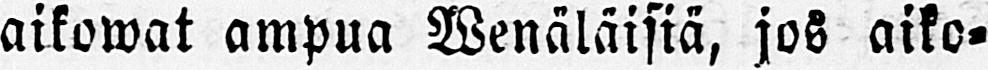aikowat ampua Wenäläisiä, jos aiko-
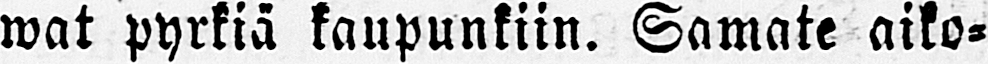wat pyrkiä kaupunkiin. Samate aiko-
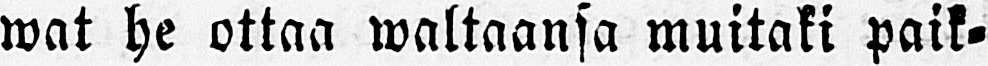wat he ottaa waltaansa muitaki paik-
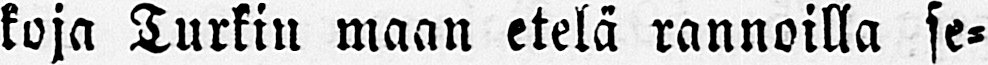koja Turkin maan etelä rannoilla se-
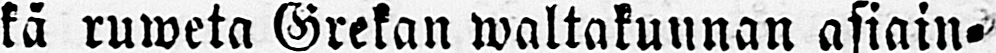kä ruweta Grekan waltakunnan asiain-
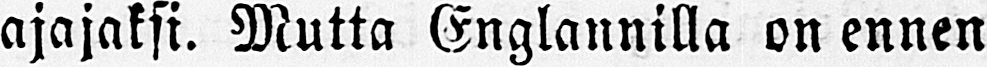ajajaksi. Mutta Englannilla on ennen
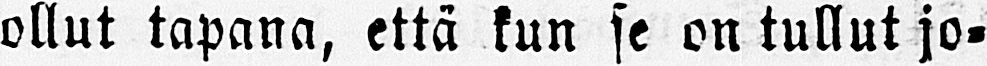ollut tapana, että kun se on tullut jo-
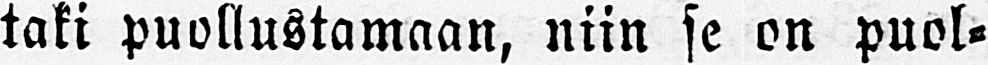taki puollustamaan, niin se on puol-
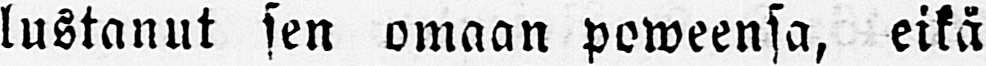lustanut sen omaan poweensa, eikä
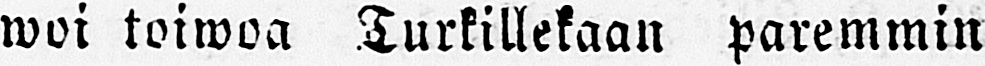woi toiwoa Turkillekaan paremmin
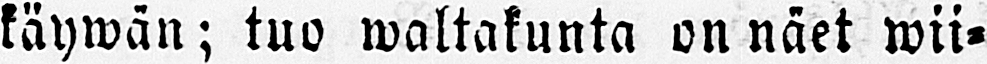käywän; tuo waltakunta on näet wii-
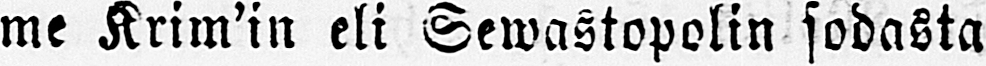me Krim’in eli Sewastopolin sodasta
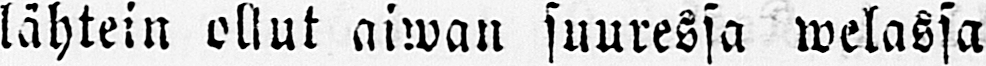lähtein ollut aiwän suuressa welassa
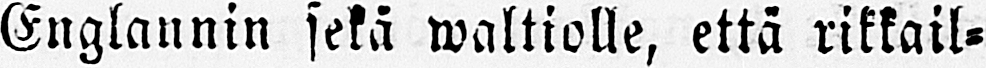Englannin sekä waltiolle, että rikkail-
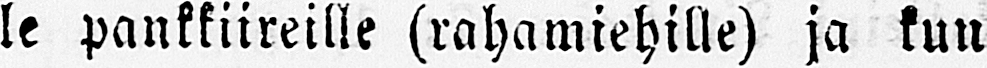le pankkiireille (rahamiehille) ja kun
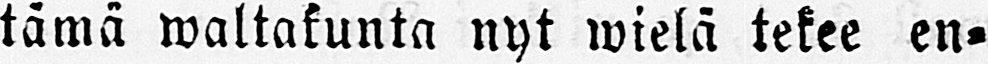tämä waltakunta nyt wielä tekee en-
